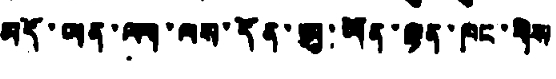མདོ་ཡན་ལག་ལས་དོན་ཨུ་ཡོན་ལྷན་ཁང་གིས
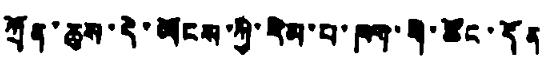ཀྲོན་ཆུས་དེ་ཡོངས་ཀྱི་རིམ་པ་ཁག་གི་ཚོང་དོན
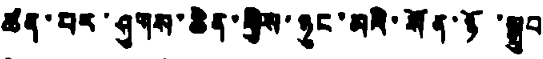ཚན་པར་ཤུགས་ཆེན་གྱིས་ཉུང་མའི་སོན་ཉོ་སྒྲུབ
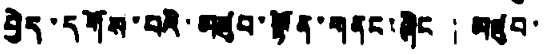བྱེད་དགོས་པའི་མཛུབ་སྟོན་གནང་ཞིང་། མཛུབ་
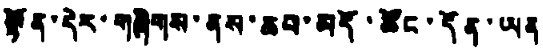སྟོན་དེར་གཞིགས་ནས་ཆབ་མདོ་ཚོང་དོན་ཡན
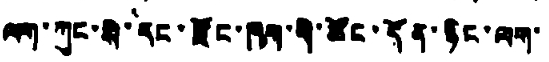ལག་ཀུང་སི་དང་རྫོང་ཁག་གི་ཚོང་དོན་ཉིང་ལག་
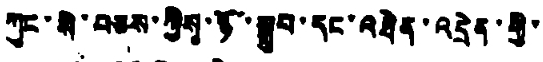ཀུང་སི་བཅས་ཀྱིས་ཉོ་སྒྲུབ་དང་འཐེན་འདྲེན་གྱི་
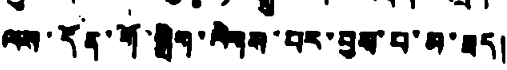ལས་དོན་གོ་སྒྲིག་ལེགས་པར་བྱས་པ་མ་ཟད།
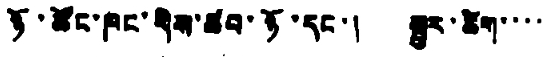ཉོ་ཚོང་ཁང་གིས་ཚབ་ཉོ་དང་། སྦྱར་ཚིག་་་་
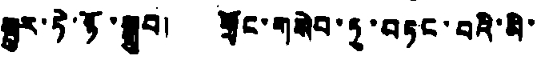སྦྱར་ཏེ་ཉོ་སྒྲུབ། གྲོང་གསེབ་ཏུ་བཏང་བའི་མི་
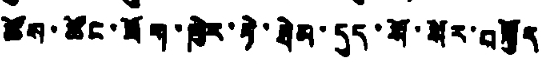ཚོས་ཚོང་ཟོག་ཁྱེར་ཏེ་ཐེམ་དུད་སོ་སོར་བསྐྱོད
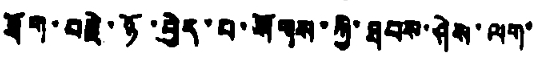ཐོག་བརྗེ་ཉོ་བྱེད་པ་སོགས་ཀྱི་ཐབས་ཤེས་ལག་
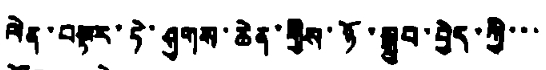ལེན་བསྟར་ཏེ་ཤུགས་ཆེན་གྱིས་ཉོ་སྒྲུབ་བྱེད་ཀྱི་་་
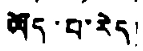ཡོད་པ་རེད།
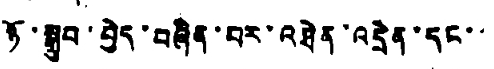ཉོ་སྒྲུབ་བྱེད་བཞིན་པར་འཐེན་འདྲེན་དང་་
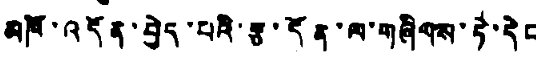མཁོ་འདོན་བྱེད་པའི་རྩ་དོན་ལ་གཞིགས་ཏེ་དེང
